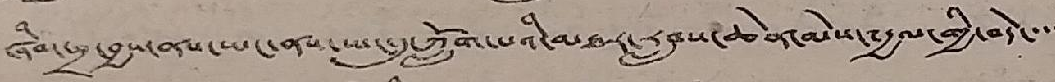ཞིབ་ཕྲ་བྱས་ནས་ཡང་ནས་ཡང་དུ་ཀློག་པའི་མཐར་རླབས་ཆེན་མེས་༸རྒྱལ་གྱི་བདེ་་་་
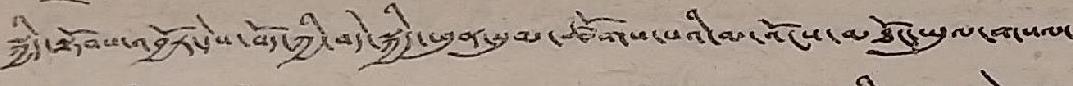སྐྱིད་སྟོབས་འབྱོར་དེས་བོད་ཀྱི་བདེ་སྐྱིད་ཕུན་སུམ་ཚོགས་པའི་མ་འོངས་མཐོང་ཡུལ་གསལ་
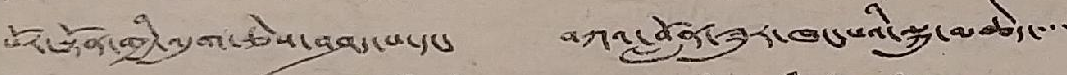པོར་སྟོན་གྱི་འདུག་ཅེས་བཤད་པ་དང་ བཀའ་བློན་ཟུར་ཁང་པའི་སྐུ་མཆེད་་་་
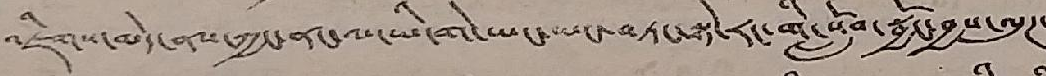འཇིགས་མེད་ནས་ཀྱང་ནང་ལ་ཡི་གེ་ཡང་ཡང་བཏང་སྟེ་རང་གི་སློབ་སྦྱོང་བྱས་ལུཊ་
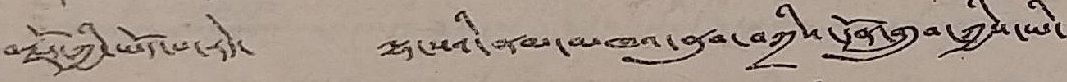བརྗོད་ཀྱི་ཡོད་པ་རེད་ ལྷ་སའི་ནམ་མཁའ་ནུབ་བཀྲིས་དོན་གྲུབ་ཀྱིས་ཡི་
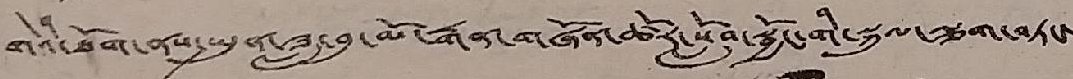གེའི་ཐོག་ནས་སྤུན་ཟླ་བུ་མོ་རྒན་གཞོན་ཚོར་སློབ་སྦྱོང་གི་སྐུལ་ལྕག་བཏང་
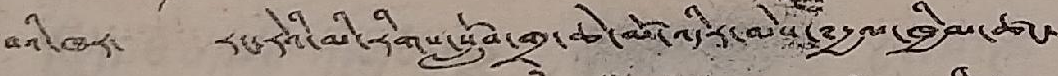བའི་ཁར་ རང་རེའི་མི་རིགས་སློབ་གྲྭ་ཆེ་མོ་འདིར་མེས་༸རྒྱལ་ཁྱིམ་ཚང་
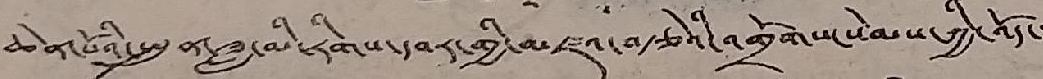ཆེན་པོའི་སྤུན་ཟླ་མི་རིགས་དབར་གྱི་མཛའ་བརྩེའི་འགྲོགས་སེམས་ཀྱི་འོད་་་
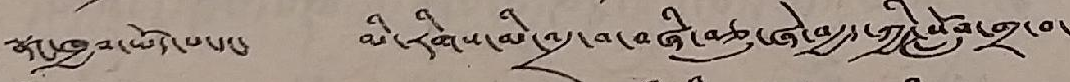སྣང་ཁྱབ་ཡོད་པ་དང་ མི་རིགས་མི་འདྲ་བ་བཞི་བཅུ་ཞེ་བརྒྱད་ཀྱི་སློབ་གྲ་བ་
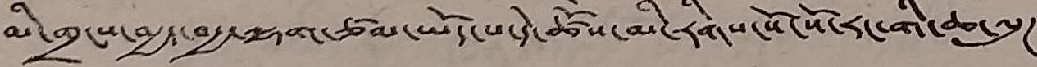མི་གྲངས་བརྒྱད་བརྒྱ་ལྷག་ཙམ་ཡོད་པ་དེ་ཚོས་མི་རིགས་སོ་སོ་རང་གི་ཆ་ལུཊ་
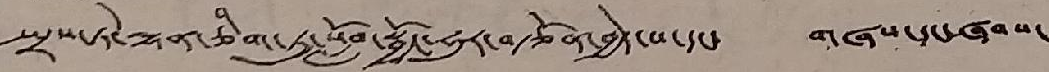སྤྲས་ཏེ་ལྷན་ཅིག་ཏུ་སློབ་སྦྱོང་ཧུར་བརྩོན་བྱེད་པ་དང་ གཞས་དང་ཞབས་
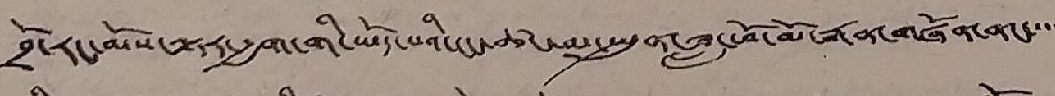བྲོ་རང་མོས་ལྟར་རྒྱག་གི་ཡོད་པའི་ངང་ཚང་མ་སྤུན་ཟླ་ཕོ་མོ་རྒན་གཞོན་ནང་་་་་
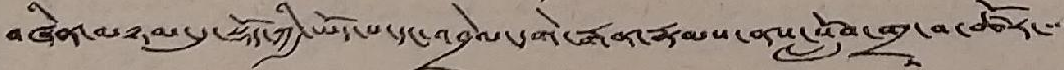བཞིན་མཉམ་དུ་སྡོད་ཀྱི་ཡོད་པ་དང་འབྲེལ་དགེ་རྒན་རྣམས་ནས་སློབ་གྲྭ་བ་ཚོར་་་་
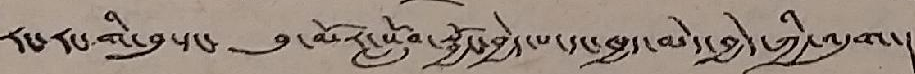རང་རང་གི་བུ་དང་ བུ་མོར་སློབ་སྦྱོང་བྱེད་པ་དང་ཁྱད་མེད་བྱེད་ཀྱི་འདུག་།
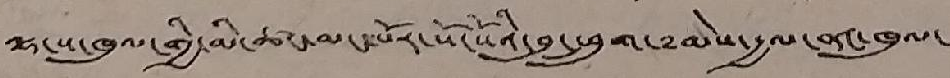ལྷ་ས་ཁུལ་གྱི་མི་ཚང་མང་པོར་སོ་སོའི་བུ་ཕྲུག་༸མེས་རྒྱལ་ནང་ཁུལ་
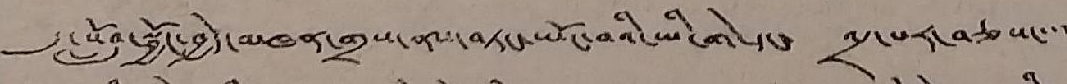དུ་སློབ་སྦྱོང་བྱེད་མཁན་གྲས་ནས་བཏང་ཡོང་བའི་ཡི་གེ་དང་ འདྲ་པར་བཅས་་་་
